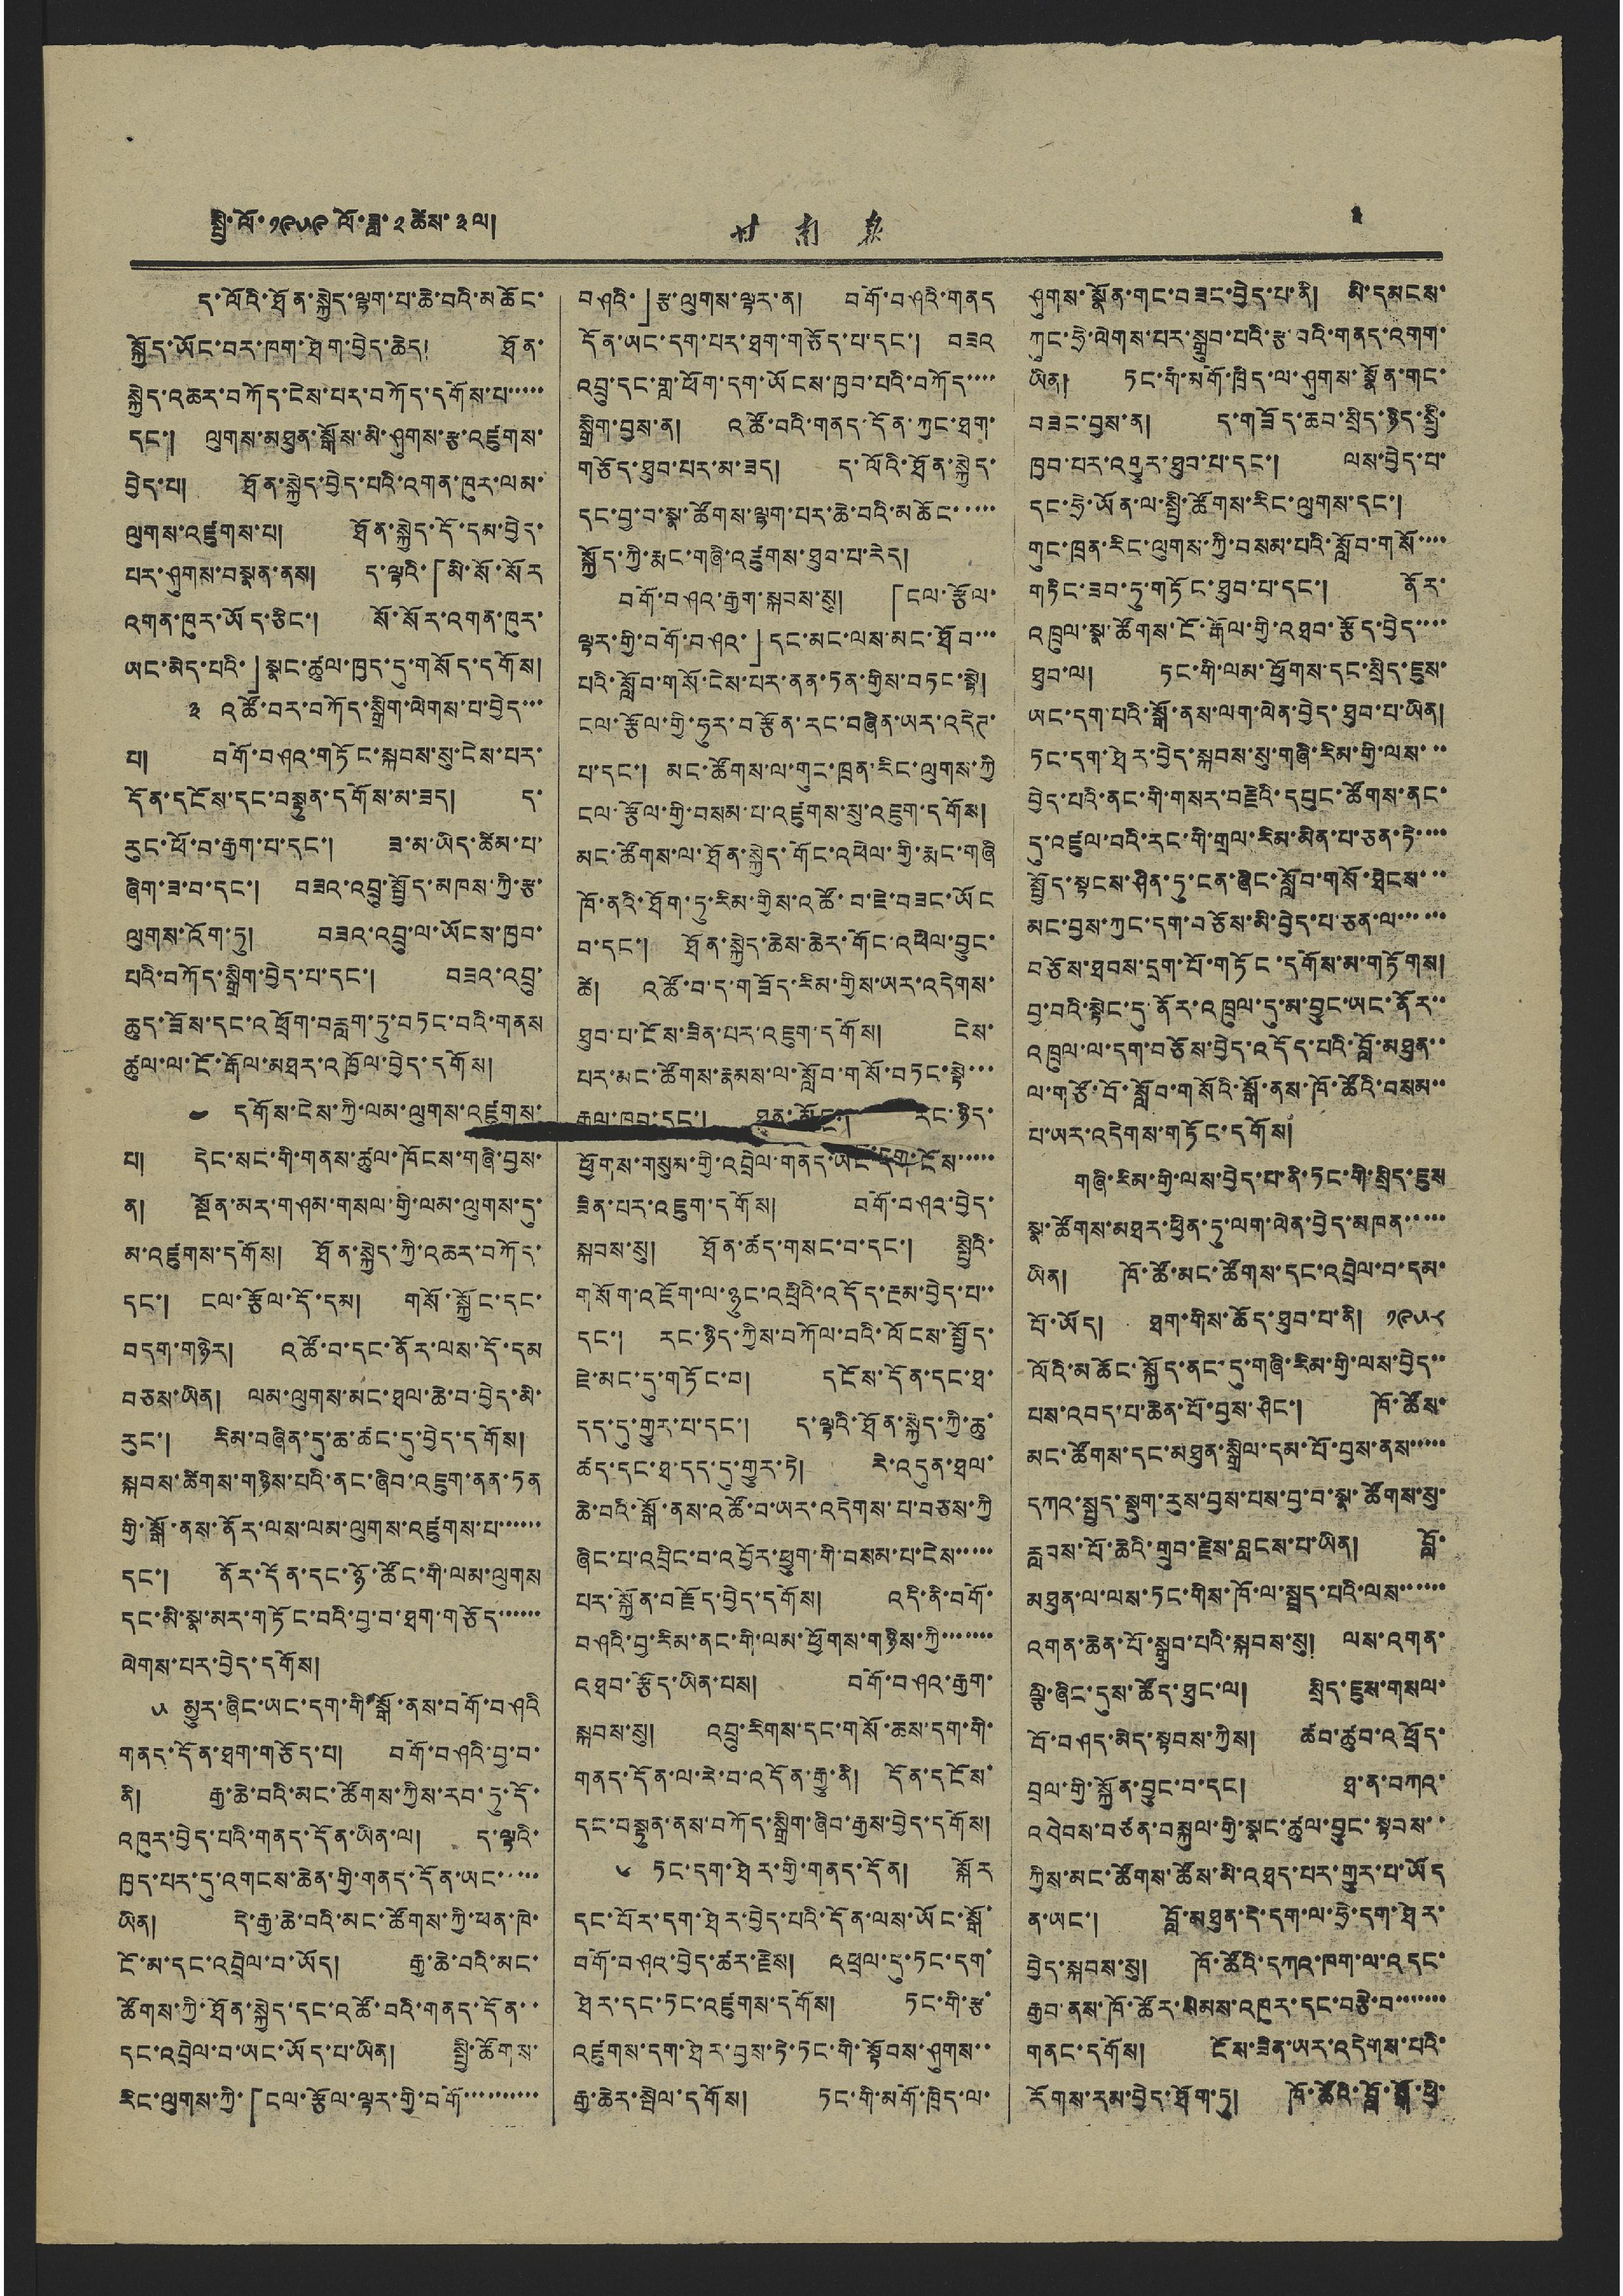སྤྱི་ལོ་ ༡༩༥༩ ལོ་ཟླ་ ༢ ཚེས་ ༣ ལ། 甘 南 報  ༣
ད་ལོའི་ཐོན་སྐྱེད་ལྷག་པ་ཆེ་བའི་མཆོང་
སྐྱོད་ཡོང་བར་ཁག་ཐེག་བྱེད་ཆེད། ཐོན་
སྐྱེད་འཆར་བཀོད་ངེས་པར་བཀོད་དགོས་པ་་་་་
དང་། ལུགས་མཐུན་སྒོས་མི་ཤུགས་རྩ་འཛུགས་
བྱེད་པ། ཐོན་སྐྱེད་བྱེད་པའི་འགན་ཁུར་ལམ་
ལུགས་འཛུགས་པ། ཐོན་སྐྱེད་དོ་དམ་བྱེད་
པར་ཤུགས་བསྣན་ནས། ད་ལྟའི་「མི་སོ་སོར
འགན་ཁུར་ཡོད་ཅིང་། སོ་སོར་འགན་ཁྲར་
ཡང་མེད་པའི་」སྣང་ཚུལ་ཁྱད་དུ་གསོད་དགོས།
༣ འཚོ་བར་བཀོད་སྒྲིག་ལེགས་པ་བྱེད་་་
པ། བགོ་བཤའ་གཏོང་སྐབས་སུ་ངེས་པར་
དོན་དངོས་དང་བསྟུན་དགོས་མ་ཟད། ད་
རུང་ཕོ་བ་རྒྱག་པ་དང་། ཟ་མ་ཡིད་ཚིམ་པ་
ཞིག་ཟ་བ་དང་། བཟའ་འབྲུ་སྤྱོད་མཁས་ཀྱི་རྩ་
ལུགས་འོག་ཏུ། བཟའ་འབྲུ་ལ་ཡོངས་ཁྱབ་
པའི་བཀོད་སྒྲིག་བྱེད་པ་དང་། བཟའ་འབྲུ་
ཆུད་ཟོས་དང་འཕྲོག་བརླག་ཏུ་བཏང་བའི་གནས
ཚུལ་ལ་ངོ་རྒོ་མཐར་འཁྱོལ་བྱེད་དགོས།
༤ དགོས་ངེས་ཀྱི་ལམ་ལུགས་འཛུགས་
པ། དེང་སང་གི་གནས་ཚུལ་ཁོངས་གཞི་བྱས་
ན། སྔོན་མར་གཤམ་གསལ་གྱི་ལམ་ལུགས་དུ་
མ་འཛུགས་དགོས། ཐོན་སྐྱེད་ཀྱི་འཆར་བཀོད་
དང་། ངལ་རྩོལ་དོ་དམ། གསོ་སྐྱོང་དང་
བདག་གཉེར། འཚོ་བ་དང་ནོར་ལས་དོ་དམ
བཅས་ཡིན། ལམ་ལུགས་མང་ཐལ་ཆེ་བ་བྱེད་མི་
རུང་། རིམ་བཞིན་དུ་ཆ་ཚང་དུ་བྱེད་དགོས།
སྐབས་ཚིགས་གཉིས་པའི་ནང་ཞིབ་འཇུག་ནན་ཏན
གྱི་སྒོ་ནས་ནོར་ལས་ལམ་ལུགས་འཛུགས་པ་་་་་་
དང་། ནོར་དོན་དང་ཉོ་ཚོང་གི་ལམ་ལུགས
དང་མི་སྣ་མར་གཏོང་བའི་བྱ་བ་ཐག་གཅོད་་་་་་
ལེགས་པར་བྱེད་དོགས།
༥ མྱུར་ཞིང་ཡང་དག་གི་སྒོ་ནས་བགོ་བཤའི
གནད་དོན་ཐག་གཅོད་པ། བགོ་བཤའི་བྱ་བ་
ནི། རྒྱ་ཆེ་བའི་མང་ཚོགས་ཀྱིས་རབ་ཏུ་དོ་
འཁུར་བྱེད་པའི་གནད་དོན་ཡིན་ལ། ད་ལྟའི་
ཁྱད་པར་དུ་འགངས་ཆེན་གྱི་གནད་དོན་ཡང་་་་་
ཡིན། དེ་རྒྱ་ཆེ་བའི་མང་ཚོགས་ཀྱི་ཕན་ཁེ་
ངོ་མ་དང་འབྲེལ་བ་ཡོད། རྒྱ་ཆེ་བའི་མང་
ཚོགས་ཀྱི་ཐོན་སྐྱེད་དང་འཚོ་བའི་གནད་དོན་་
དང་འབྲེལ་བ་ཡང་ཡོད་པ་ཡིན། སྤྱི་ཚོགས་
རིང་ལུགས་ཀྱི་「ངལ་རྩོལ་ལྟར་གྱི་བགོ་་་་་་་་་་
བཤའི་」རྩ་ལུགས་ལྟར་ན། བགོ་བཤའི་གནད
དོན་ཡང་དག་པར་ཐག་གཅོད་པ་དང་། བཟའ
འབྲུ་དང་གླ་ཕོག་དག་ཡོངས་ཁྱབ་པའི་བཀོད་་་་
སྒྲིག་བྱས་ན། འཚོ་བའི་གནད་དོན་ཀྱང་ཐག་
གཅོད་ཐུབ་པར་མ་ཟད། ད་ལོའི་ཐོན་སྐྱེད་
དང་བྱ་བ་སྣ་ཚོགས་ལྷག་པར་ཆེ་བའི་མཆོང་་་་་
སྐྱོད་ཀྱི་རྨང་གཞི་འཛུགས་ཐུབ་པ་རེད།
བགོ་བཤའ་རྒྱག་སྐབས་སུ། 「ངལ་རྩོལ་
ལྟར་གྱི་བགོ་བཤའ་」དང་མང་ལས་མང་ཐོབ་་་
པའི་སློབ་གསོ་ངེས་པར་ནན་ཏན་གྱིས་བཏང་སྟེ།
ངལ་རྩོལ་གྱི་ཧུར་བརྩོན་རང་བཞིན་ཡར་འདེཌ་
པ་དང་། མང་ཚོགས་ལ་གུང་ཁྲན་རིང་ལུགས་ཀྱི
ངལ་རྩོལ་གྱི་བསམ་པ་འཛུགས་སུ་འཇུག་དགོས།
མང་ཚོགས་ལ་ཐོན་སྐྱེད་གོང་འཕེལ་གྱི་རྨང་གཞི
ཁོ་ནའི་ཐོག་ཏུ་རིམ་གྱིས་འཚོ་བ་ཇེ་བཟང་ཡོང
བ་དང་། ཐོན་སྐྱེད་ཆེས་ཆེར་གོང་འཕེལ་བྱུང་
ཚེ། འཚོ་བ་གཟོད་རིམ་གྱིས་ཡར་འདེགས་
ཐུབ་པ་ངོས་ཟིན་པར་འཇུག་དགོས། ངེས་
པར་མང་ཚོགས་རྣམས་ལ་སློབ་གསོ་བཏང་སྟེ་་་
རྒྱལ་ཁབ་དང་། ཐུན་མོང་། རང་ཉིད་
ཕྱོགས་གསུམ་གྱི་འབྲེལ་གནད་ཡང་དག་ངོས་་་་་
ཟིན་པར་འཇུག་དགོས། བགོ་བཤའ་བྱེད་
སྐབས་སུ། ཐོན་ཚད་གསང་བ་དང་། སྤྱིའི་
གསོག་འཇོག་ལ་ཉུང་འཕྲིའི་འདོད་རྔམ་བྱེད་པ་་
དང་། རང་ཉིད་ཀྱིས་བཀོལ་བའི་ལོངས་སྤྱོད་
ཇེ་མང་དུ་གཏོང་བ། དངོས་དོན་དང་ཐ་
དད་དུ་གྱུར་པ་དང་། ད་ལྟའི་ཐོན་སྐྱེད་ཀྱི་ཆུ་
ཚད་དང་ཐ་དད་དུ་གྱུར་ཏེ། རེ་འདུན་ཐལ་
ཆེ་བའི་སྒོ་ནས་འཚོ་བ་ཡར་འདེགས་པ་བཅས་ཀྱི
ཞིང་པ་འབྲིང་བ་འབྱོར་ཕྱུག་གི་བསམ་པ་ངེས་་་་་
པར་སྐྱོན་བརྗོད་བྱེད་དགོས། འདི་ནི་བགོ་
བཤའི་བྱ་རིམ་ནང་གི་ལམ་ཕྱོགས་གཉིས་ཀྱི་་་་་་་
འཐབ་རྩོད་ཡིན་པས། བགོ་བཤའ་རྒྱག་
སྐབས་སུ། འབྲུ་རིགས་དང་གསོ་ཆས་དག་གི་
གནས་དོན་ལ་རེ་བ་འདོན་རྒྱུ་ནི། དོན་དངོས་
དང་བསྟུན་ནས་བཀོད་སྒྲིག་ཞིབ་རྒྱས་བྱེད་དགོས།
༦ ཏང་དག་ཐེར་གྱི་གནད་དོན། སྐོར
དང་པོར་དག་ཐེར་བྱེད་པའི་དོན་ལས་ཡོང་སྒོ་
བགོ་བཤའ་བྱེད་ཚར་རྗེས། འཕྲལ་དུ་ཏང་དག་
ཐེར་དང་ཏང་འཛུགས་དགོས། ཏང་གི་རྩ་
འཛུགས་དག་ཐེར་བྱས་ཏེ་ཏང་གི་སྟོབས་ཤུགས་་
རྒྱ་ཆེར་སྤེལ་དགོས། ཏང་གི་མགོ་ཁྲིད་ལ་
ཤུགས་སྣོན་གང་བཟང་བྱེད་པ་ནི། མི་དམངས་
ཀུང་ཧྲེ་ལེགས་པར་སྒྲུབ་པའི་རྩ་བའི་གནད་འགག་
ཡིན། ཏང་གི་མགོ་ཁྲིད་ལ་ཤུགས་སྣོན་གང་
བཟང་བྱས་ན། ད་གཟོད་ཆབ་སྲིད་ཉིད་སྤྱི་
ཁྱབ་པར་འགྱུར་ཐུབ་པ་དང་། ལས་བྱེད་པ་
དང་ཧྲེ་ཡོན་ལ་སྤྱི་ཚོགས་རིང་ལུགས་དང་།
གུང་ཁྲན་རིང་ལུགས་ཀྱི་བསམ་པའི་སློབ་གསོ་་་་
གཏིང་ཟབ་ཏུ་གཏོང་ཐུབ་པ་དང་། ནོར་
འཁྲུལ་སྣ་ཚོགས་ངོ་རྒོལ་གྱི་འཐབ་རྩོད་བྱེད་་་་
ཐུབ་ལ། ཏང་གི་ལམ་ཕྱོགས་དང་སྲིད་ཇུས་
ཡང་དག་པའི་སྒོ་ནས་ལག་ལེན་བྱེད་ཐུབ་པ་ཡིན།
ཏང་དག་ཐེར་བྱེད་སྐབས་སུ་གཞི་རིམ་གྱི་ལས་་་
བྱེད་པའི་ནང་གི་གསར་བརྗེའི་དཔུང་ཚོགས་ནང་
དུ་འཛུལ་བའི་རང་གི་གྲལ་རིམ་མིན་པ་ཅན་ཏེ་་་་
སྤྱོད་སྟངས་ཤིན་ཏུ་ངན་ཞིང་སློབ་གསོ་ཐེངས་་་
མང་བྱས་ཀྱང་དག་བཅོས་མི་བྱེད་པ་ཅན་ལ་་་་་་
བཅོས་ཐབས་དྲག་པོ་གཏོང་དགོས་མ་གཏོགས།
བྱ་བའི་སྟེང་དུ་ནོར་འཁྲུལ་དུ་མ་བྱུང་ཡང་ནོར་་
འཁྲུལ་ལ་དག་བཅོས་བྱེད་འདོད་པའི་བློ་མཐུན་་
ལ་གཙོ་བོ་སློབ་གསོའི་སྒོ་ནས་ཁོ་ཚོའི་བསམ་་
པ་ཡར་འདེགས་གཏོང་དགོས།
གཞི་རིམ་གྱི་ལས་བྱེད་པ་ནི་ཏང་གི་སྲིད་ཇུས
སྣ་ཚོགས་མཐར་ཕྱིན་ཏུ་ལག་ལེན་བྱེད་མཁན་་་་་
ཡིན། ཁོ་ཚོ་མང་ཚོགས་དང་འབྲེལ་བ་དམ་
པོ་ཡོད། ཐག་གིས་ཆོད་ཐུབ་པ་ནི། ༡༩༥༨
ལོའི་མཆོང་སྐྱོད་ནང་དུ་གཞི་རིམ་གྱི་ལས་བྱེད་་
པས་འབད་པ་ཆེན་པོ་བྱས་ཤིང་། ཁོ་ཚོས་
མང་ཚོགས་དང་མཐུན་སྒྲིལ་དམ་པོ་བྱས་ནས་་་་་
དཀའ་སྤྱད་སྡུག་རུས་བྱས་པས་བྱ་བ་སྣ་ཚོགས་སུ་
རླབས་པོ་ཆེའི་གྲུབ་རྗེས་བླངས་པ་ཡིན། བློ་
མཐུན་ལ་ལས་ཏང་གིས་ཁོ་ལ་སྤྲད་པའི་ལས་་་་་་
འགན་ཆེན་པོ་སྒྲུབ་པའི་སྐབས་སུ། ལས་འགན་
ལྕི་ཞིང་དུས་ཚོད་ཐུང་ལ། སྲིད་ཇུས་གསལ་
བོ་བཤད་མེད་སྟབས་ཀྱིས། ཚབ་ཚུབ་འཕྲོད་
བྲལ་གྱི་སྐྱོན་བྱུང་བ་དང་། ཐ་ན་བཀའ་
འབེབས་བཙན་བསྐྱལ་གྱི་སྣང་ཚུལ་བྱུང་སྟབས་་
ཀྱིས་མང་ཚོགས་ཚོས་མི་འཐད་པར་གྱུར་པ་ཡོད
ན་ཡང་། བློ་མཐུན་དེ་དག་ལ་ཧྲེ་དག་ཐེར་
བྱེད་སྐབས་སུ། ཁོ་ཚོའི་དཀའ་ཁག་ལ་འདང་
རྒྱུབ་ནས་ཁོ་ཚོར་སེམས་འཁུར་དང་བརྩེ་བ་་་་་་་
གནང་དགོས། ངོས་ཟིན་ཡར་འདེགས་པའི་
རོགས་རམ་བྱེད་ཐོག་ཏུ། ཁོ་ཚོའི་བློ་སྒོ་ཕྱི་
